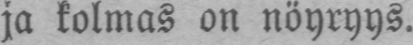ja kolmas on nöyryys.
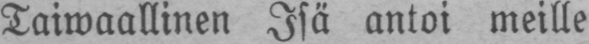Taiwaallinen Isä antoi meille
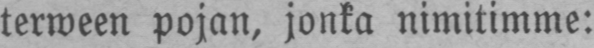terween pojan, jonka nimitimme:
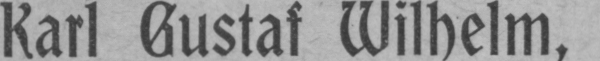Karl Gustaf Wilhelm,
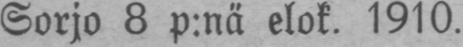Sorjo 8 p:nä elok. 1910.
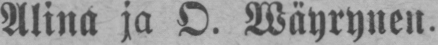Alina ja O. Wäyrynen.
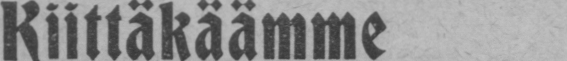Kiittäkäämme
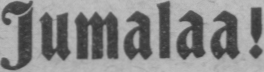Jumalaa!
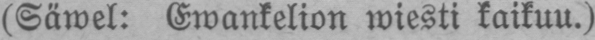(Säwel: Ewankelion wiesti kaikuu.)
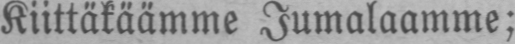Kiittäkäämme Jumalaamme;
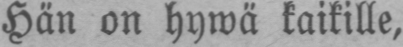Hän on hywä kaikille,
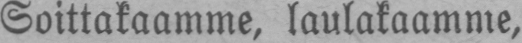Soittakaamme, laulakaamme,
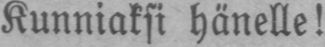Kunniaksi hänelle!
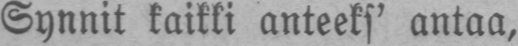Synnit kaikki anteeksi antaa,
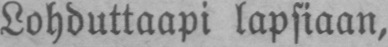Lohduttaapi lapsiaan,
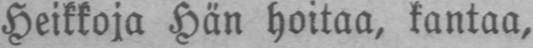Heikkoja Hän hoitaa, kantaa.
